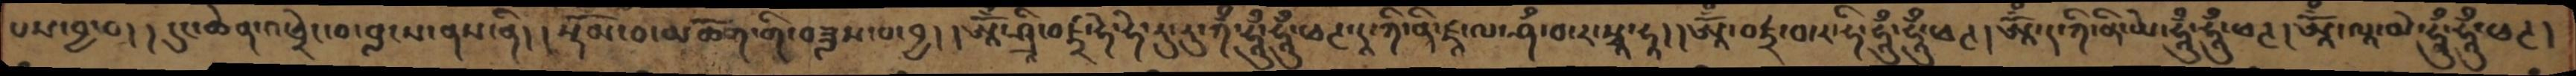པས་བྱ་བ།། དུང་ཆེན་འཕྲེང་བ་བླངས་ནས་ནི།། སྡོམ་པ་མཆོག་གི་བཟླས་པ་བྱ།། ཨཱོྃ་ཤྲི་བཛྲ་ཧེ་ཧེ་རུ་རུ་ཀྃ་ཧཱུྃ་ཧཱུྃ་ཕཊ་ཌཱ་ཀི་ནི་ཛཱ་ལ་ཤྃ་བ་ར་སྭཱ་ཧཱ།། ཨཱོྃ་བཛྲ་བ་ར་ཧི་ཧཱུྃ་ཧཱུྃ་ཕཊ། ཨཱོྃ་ད་ཀི་ནི་ཡེ་ཧཱུྃ་ཧཱུྃ་ཕཊ། ཨཱོྃ་ལཱ་མེ་ཧཱུྃ་ཧཱུྃ་ཕཊ།
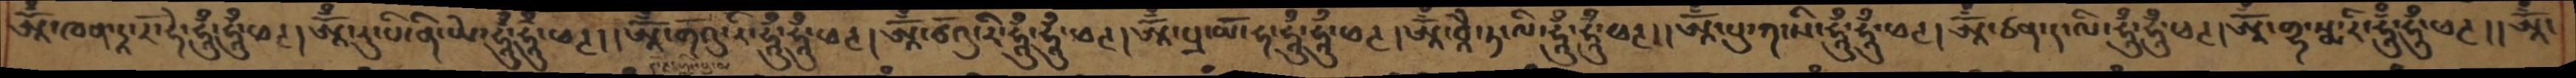ཨཱོྃ་ཁན་དཱ་རོ་ཧེ་ཧཱུྃ་ཧཱུྃ་ཕཊ། ཨཱོྃ་རུ་པི་ནི་ཡེ་ཧཱུྃ་ཧཱུྃ་ཕཊ།། ཨཱོྃ་གོའུ་རི་ཧཱུྃ་ཧཱུྃ་ཕཊ།ཨཱོྃ་ཙོའུ་རི་ཧཱུྃ་ཧཱུྃ་ཕཊ། ཨཱོྃ་པྲ་མོ་ཧ་ཧཱུྃ་ཧཱུྃ་ཕཊ། ཨཱོྃ་བཱཻ་ཏ་ལི་ཧཱུྃ་ཧཱུྃ་ཕཊ། ཨཱོྃ་པུ་ཀ་སི་ཧཱུྃ་ཧཱུྃ་ཕཊ། ཨཱོྃ་ཙན་ད་ལི་ཧཱུྃ་ཧཱུྃ་ཕཊ། ཨཱོྃ་གྷ་སྨ་རི་ཧཱུྃ་ཧཱུྃ་ཕཊ།། ཨཱོྃ་
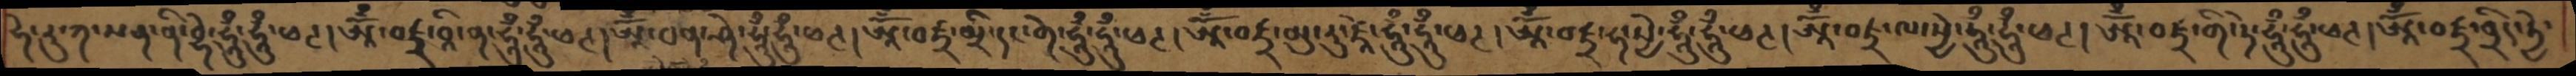ཧེ་རུ་ཀ་སན་ནི་བྷེ་ཧཱུྃ་ཧཱུྃ་ཕཊ། ཨཱོྃ་བཛྲ་བཱི་ན་ཧཱུྃ་ཧཱུྃ་ཕཊ། ཨཱོྃ་བན་ཤེ་ཧཱུྃ་ཧཱུྃ་ཕཊ། ཨཱོྃ་བཛྲ་མྲི་དང་གེ་ཧཱུྃ་ཧཱུྃ་ཕཊ། ཨཱོྃ་བཛྲ་མུ་རུ་ཛཱེ་ཧཱུྃ་ཧཱུྃ་ཕཊ། ཨཱོྃ་བཛྲ་ཧ་སྱེ་ཧཱུྃ་ཧཱུྃ་ཕཊ། ཨཱོྃ་བཛྲ་ལ་སྱེ་ཧཱུྃ་ཧཱུཾ་ཕཊ། ཨཱོྃ་བཛྲ་གི་ཏེ་ཧཱུྃ་ཧཱུྃ་ཕཊ། ཨཱོྃ་བཛྲ་བྲིད་ཏྱེ་
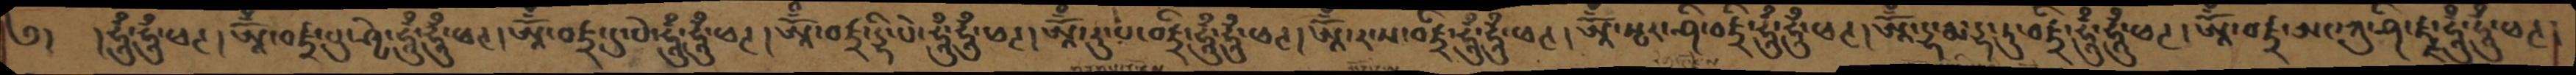༄། །ཧཱུྃ་ཧཱུྃ་ཕཊ། ཨཱོྃ་བཛྲ་པུ་ཤྱེ་ཧཱུྃ་ཧཱུྃ་ཕཊ། ཨཱོྃ་བཛྲ་དུ་པེ་ཧཱུྃ་ཧཱུྃ་ཕཊ། ཨཱོྃ་བཛྲ་དྷི་པེ་ཧཱུྃ་ཧཱུྃ་ཕཊ། ཨཱོྃ་རུ་པ་བཛྲི་ཧཱུྃ་ཧཱུྃ་ཕཊ། ཨཱོྃ་ར་ས་བཛྲི་ཧཱུྃ་ཧཱུྃ་ཕཊ། ཨཱོྃ་སྤར་ཤི་བཛྲི་ཧཱུྃ་ཧཱུྃ་ཕཊ། ཨཱོྃ་དྷ་རྨ་དྷ་ཏུ་བཛྲི་ཧཱུྃ་ཧཱུྃ་ཕཊ། ཨཱོྃ་བཛྲ་ཨང་ཀུ་ཤི་ཛྫ་ཧཱུྃ་ཧཱུྃ་ཕཊ།
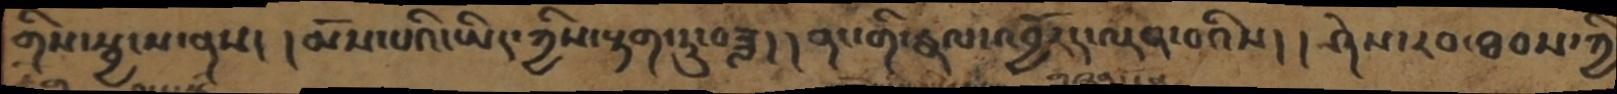གིས་སྦྱངས་ནས། །མོས་པའི་ཡིད་ཀྱིས་རྟག་ཏུ་བཟླ། །ནང་གི་རྣལ་འབྱོརད་ལྡན་པའིས། །ཤེས་རབ་ཐབས་ཀྱི
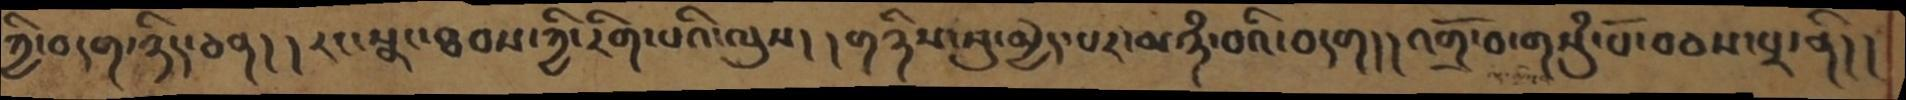ཀྱི་བདག་ཉིད་ཅན། །རང་སྣང་ཐབས་ཀྱི་རིག་པའི་ལུས། །གཉིས་སུ་མྱེད་པར་མཉཾ་བའི་བདག། །འགྲོ་བ་གསུཾ་པོ་བཅས་པར་ནི།།
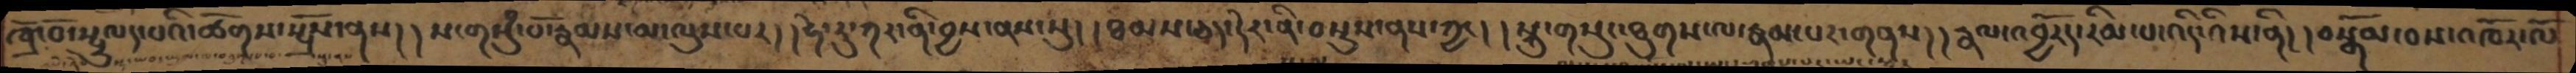ཁྲོ་བོ་སྤྲུལད་པའི་ཚོགས་སྤྲོས་ནས།། ས་གསུཾ་པོ་རྣམས་མ་ལུས་པར།། ཧེ་རུ་ཀར་ནི་བྱས་ནས་སུ།། ཐམས་ཅད་དེར་ནི་བསྡུས་ནས་ཀྱ།། སྐུ་གསུང་ཐུགས་ལ་རྣམ་པར་གནས།། རྣལ་འབྱོརད་རིམ་པ་འདི་འིས་ནི།། བསྒོམ་བས་འཁོར་ལོ
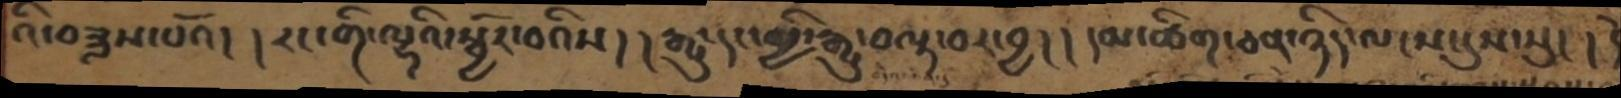འི་བཟླས་པའོ། །རང་གི་ལྷའི་སྦྱོར་བའིས། །རྒྱུ་དང་མྱི་རྒྱུ་བལྟ་བར་བྱ། །དམ་ཚིག་ཅན་ཉིད་ལངས་དུས་སུ། །དེ
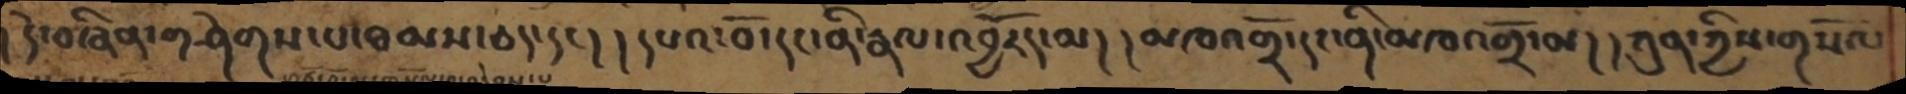དེ་བཞིན་གཤེགས་པ་ཐམས་ཅད་དང། །དཔའ་བོ་དང་ནི་རྣལ་འབྱོརད་མ། །མཁའགྲོ་དང་ནི་མཁའགྲོ་མ། །ཀུན་ཀྱིས་གསོལ
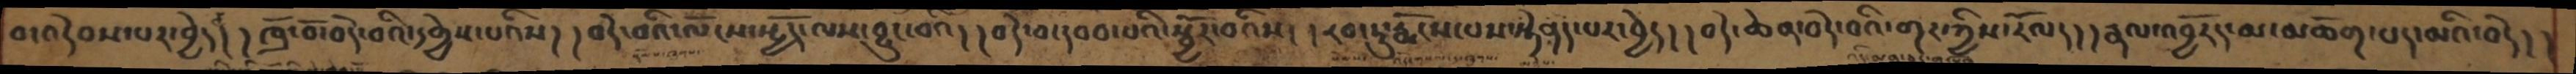བ་འདེབས་པར་བྱེད། །ཁྲོ་བོ་བདེ་བའི་དགྱེས་པའིས། །བདེ་བའི་ལོངས་སྤྱོད་ལས་བྱུང་བའི། །བདེ་བ་དབབ་པའི་སྦྱོར་བའིས། །རབ་ཏུ་རྨོངས་པས་སྟེནད་པར་བྱེད། །བདེ་ཆེན་བདེ་བའི་གར་ཀྱིས་རོལད། །རྣལ་འབྱོརད་མ་མཆོག་པད་མའི་བདེ། །
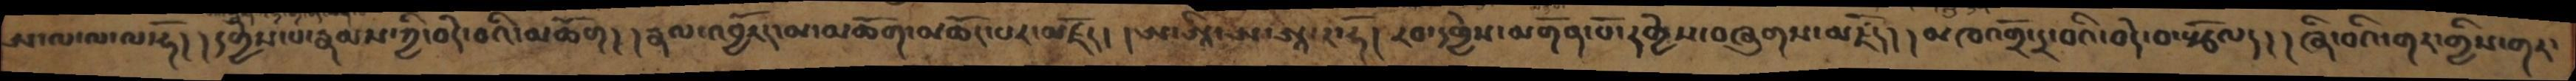ཨ་ལ་ལ་ལ་ཧོ། །དགྱེས་པ་རྣམས་ཀྱི་བདེ་བའི་མཆོག། །རྣལ་འབྱོརད་མ་མཆོག་མཆོང་པར་མཛོད། །ཨ་ཨཱི་ཨ་ཨཱ་ར་ཧོ། རབ་དགྱེས་མགོན་པོ་དགྱེས་བཞུགས་མཛོད། །མཁའགྲོ་དྲ་བའི་བདེ་བ་རྩོལད། །ཞི་བའི་གར་གྱིས་གར་
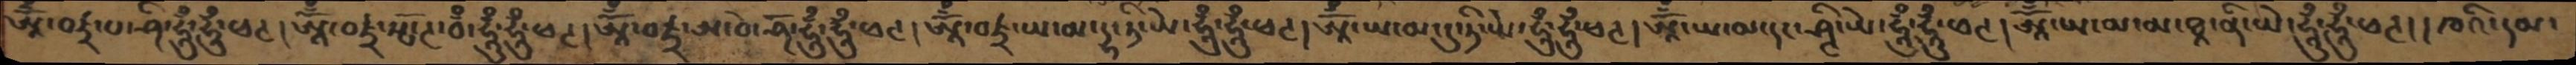ཨཱོྃ་བཛྲ་པ་ཤི་ཧཱུྃ་ཧཱུྃ་ཕཊ། ཨཱོྃ་བཛྲ་སྤོ་ཊ་བྃ་ཧཱུྃ་ཧཱུྃ་ཕཊ། ཨཱོྃ་བཛྲ་ཨ་བེ་ཤོ་ཧཱུྃ་ཧཱུྃ་ཕཊ། ཨཱོྃ་བཛྲ་ཡ་མ་དྷ་ཏི་ཡེ་ཧཱུྃ་ཧཱུྃ་ཕཊ། ཨཱོྃ་ཡ་མ་དུ་ཏི་ཡེ་ཧཱུྃ་ཧཱུྃ་ཕཊ། ཨཱོྃ་ཡ་མ་དང་ཤྚི་ཡེ་ཧཱུྃ་ཧཱུྃ་ཕཊ། ཨཱོྃ་ཡ་མ་མ་ཐཱ་ནི་ཡེ་ཧཱུྃ་ཧཱུྃ་ཕཊ།། ཁའི་དམ་
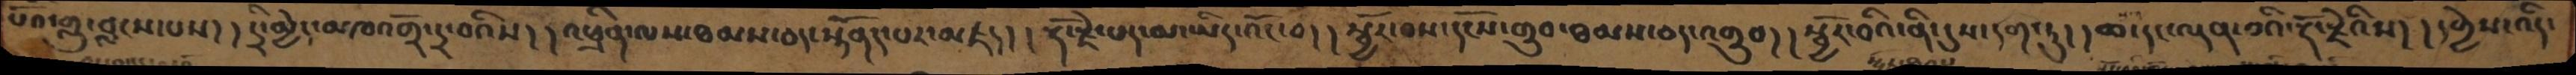པོའ་གླུ་བླངས་པས། །དྲི་མྱེད་མཁའགྲོ་དྲ་བའིས། །འཕྲིན་ལས་ཐམས་ཅད་སྟོནད་པར་མཛད། །རྡོ་རྗེ་པད་མ་ཡིད་འོང་བ། །སྦྱོར་བས་དངོས་གྲུབ་ཐམས་ཅད་འགྲུབ། །སྦྱོར་བའི་ནི་དུས་དག་ཏུ། །ཆ་དང་ལྡན་བའི་རྡོ་རྗེའིས། །དགྱེས་འདི་
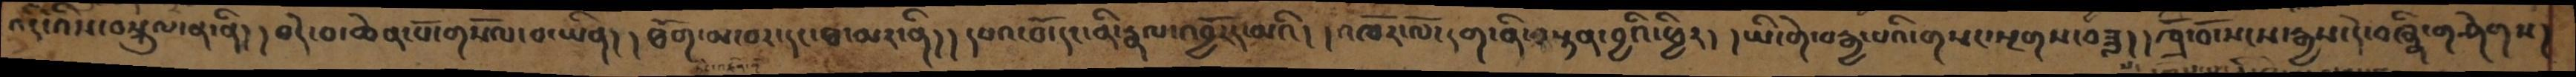འདི་འིས་བསྐུལ་ན་ནི། །བདེ་བ་ཆེན་པོ་གསོལ་བ་ཡིན། །ཐོག་མ་བར་དང་ཐ་མར་ནི།། དཔའ་བོ་དང་ནི་རྣལ་འབྱོརད་མའི། །འཁོར་ལོ་དག་ནི་བསྟན་བྱའི་ཕྱིར། །ཡི་གེ་བརྒྱ་པའི་གསང་སྔགས་བཟླ། །ཁྲོ་བོ་སངས་རྒྱས་དེ་བཞིན་གཤེགས།
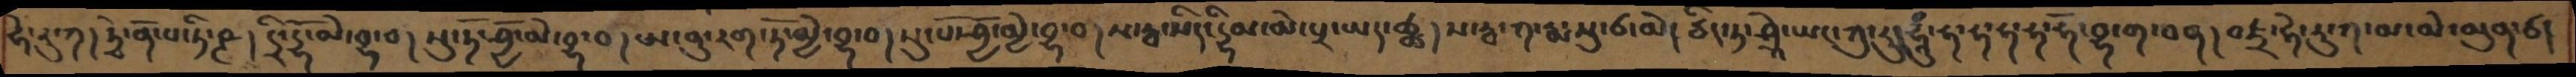ཧེ་རུ་ཀ། ཏྭེ་ནོ་པ་ཏི་ཤྜ། དྲི་དྷོ་མེ་བྷ་བ། སུ་ཏོ་ཤྱོ་མེ་བྷ་བ། ཨ་ནུ་རག་ཏོ་མྱེ་བྷ་བ། སུ་པོ་ཤྱོ་མྱེ་བྷ་བ། ས་རྦ་སིད་དྷིམ་མེ་པྲ་ཡད་ཚྪ། ས་རྦ་ཀ་རྨ་སུ་ཙ་མེ། ཙིད་ཏ་ཤྲཱི་ཡང་ཀུ་ར་ཧཱུྃ་ ཧ་ཧ་ཧ་ཧ་ཧོ་བྷ་ག་བན། བཛྲ་ཧེ་རུ་ཀ་མ་མེ་མུན་ཙ།
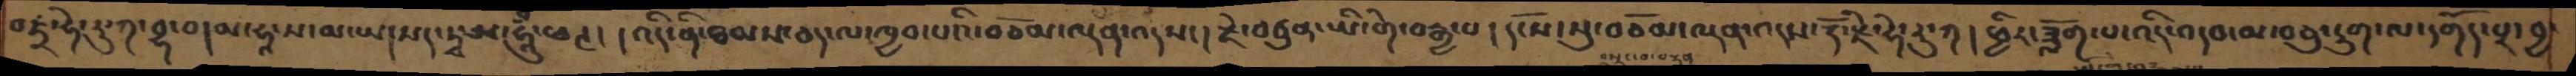བཛྲ་ཧེ་རུ་ཀ་བྷ་བ། མ་ཧཱ་ས་མ་ཡ། སད་ཏྭ་ཨ་ཧཱུྃ་ཕཊ། །འདི་ནི་ཐམས་ཅད་ལ་ཁྱབ་པའི་བཅོམ་ལྡན་འདས། རྗེ་བཙུན་ཡི་གེ་བརྒྱ་པ། དངོས་སུ་བཅོམ་ལྡན་འདས་རྡོ་རྗེ་ཧེ་རུ་ཀ། ཕྱིར་ཟློག་པ་འདི་འདབ་མ་བཅུ་དྲུག་ལ་དགོད་པར་བྱ་
